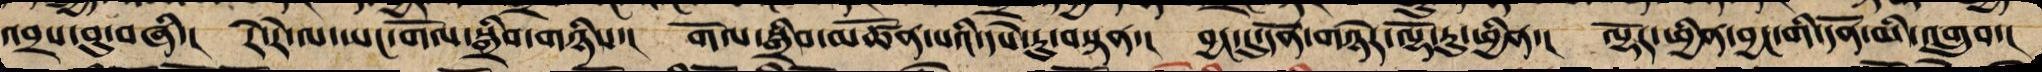འབྲས་བུ་བཞི་། རེ་རེ་ལའང་གོལ་སྒྲིབ་གཉིས་། གོལ་སྒྲིབ་མཚོན་པའི་དཔེ་རུ་བསྟན་། བྱང་དུ་དོན་གཉེར་ལྷོ་རུ་ཕྱིན་། ལྷོར་ཕྱིན་བྱང་གི་དོན་མི་འགྲུབ་།
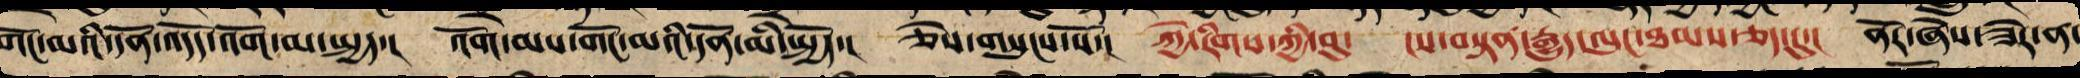གོང་མའི་དོན་འདོད་འོག་མ་སྤྱད་། འོག་མས་གོང་མའི་དོན་མི་སྤྱོད་། ཅེས་གསུངས་སོ་། ཀྱེ་རིགས་ཀྱི་བུ། ངས་བསྟན་རྒྱུད་ལུང་ཐམས་ཅད་དུ་། ནོར་ཞེས་ཟེར་ན་
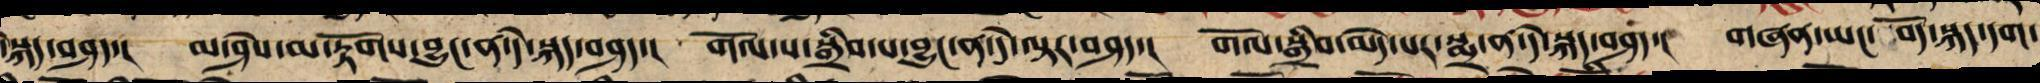་སྐད་བཤད་། མ་ཤེས་མ་རྟོགས་བྱུང་ན་དེ་སྐད་བཤད་། གོལ་ས་སྒྲིབ་པ་བྱུང་ན་དེ་ལྟར་བཤད་། གོལ་སྒྲིབ་མེད་པར་བཤད་ན་དེ་སྐད་བཤད་། གཞན་ཡང་བོད་སྐད་དག་
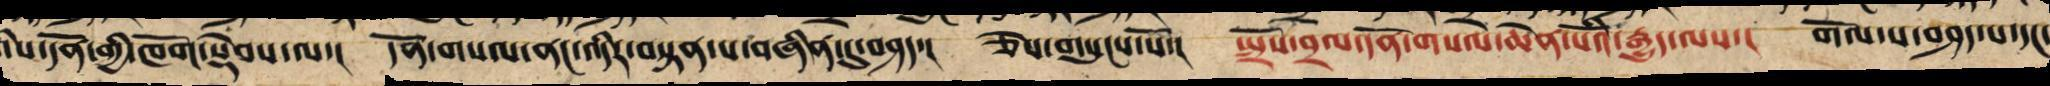གི་ཁོག་སྡེབས་ལ། །དོན་གསལ་ནང་འདིར་བསྟན་པ་བཞིན་དུ་སྤྱད། ཅེས་གསུངས་སོ། སྤྲོས་བྲལ་དོན་གསལ་ཆེན་པོའི་རྒྱུད་ལས། གོལ་ས་བཤད་པ་དང་
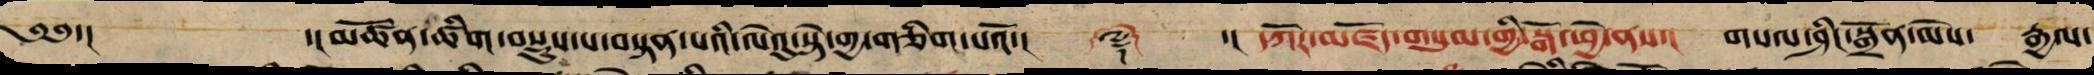༄༅་།  ་།མཚོན་ཚིག་བསྡུས་པ་བསྟན་པའི་ལེའུ་སྟེ་གྱ་གཅིག་པའོ་།། ༼༈༽ ་།། དཀོར་མཛོད་གསུམ་གྱི་སྒོ་ཕྱེ་ནས་། གསལ་ཤིང་སྒྲོན་མེས་ རྒྱལ་
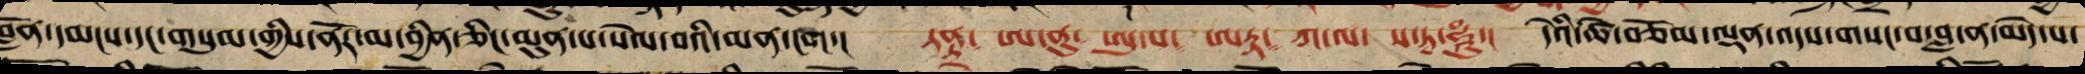བློན་དམངས་དང་གསུམ་གྱིས་ནོར་བྱིན་ཅིང་མུན་པ་སེལ་པའི་མན་ངག་། ཏནྟྲ་ ཨ་ནུ་ ཨུ་པ་ ཨརྟ་ ཀ་ལ་ ས་ཏྭ་ཧཱུཾ་། དེའི་ཚེ་བཅོམ་ལྡན་འདས་གསང་བ་བླ་ན་མེད་པ་
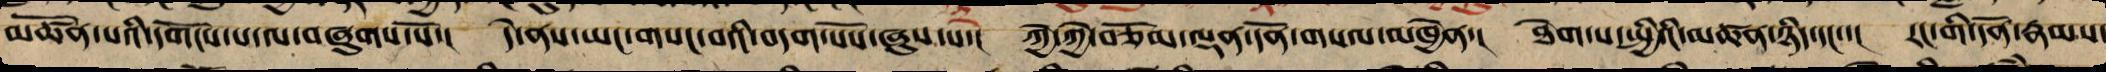མཚོན་པའི་དགོངས་པ་ལ་བཞུགས་སོ་། དེ་ནས་ཡང་གསང་བའི་བདག་པོས་ཞུས་པ་། ཀྱེ་ཀྱེ་བཅོམ་ལྡན་དོན་གསལ་མཁྱེན་། ཐེག་པ་སྤྱིའི་མཚན་ཉིད་དང་་། རང་གི་དོན་རྣམས་
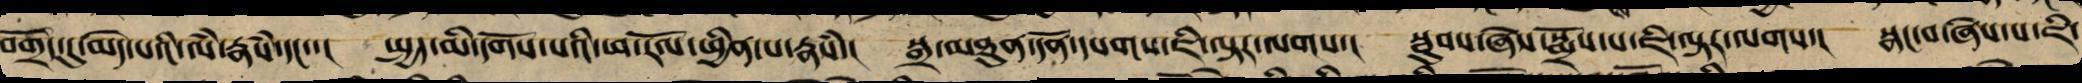བགྲོད་དུ་མེད་པའི་ལམ་རྣཾས་དང་་། སྤྱད་མི་དགོས་པའི་ཕ་རོལ་ཕྱིན་པ་རྣཾས་། སྒྲ་མཐུན་དོན་དཔག་ཇི་ལྟར་ལགས་། སྦུབས་ཞེས་སྨྲོས་པ་ཇི་ལྟར་ལགས་། སྣང་བ་ཞེས་པ་ཇི་
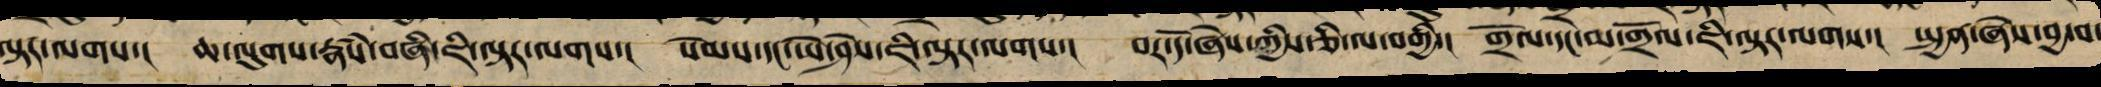ལྟར་ལགས་། ཆ་ལུགས་རྣཾས་བཞི་ཇི་ལྟར་ལགས་། སེམས་དང་ཡེ་ཤེས་ཇི་ལྟར་ལགས་། བར་དོ་ཞེས་ནི་ཅི་ལ་བགྱི་། གྲོལ་དང་མ་གྲོལ་ཇི་ལྟར་ལགས་། སྤྱན་ཞེས་བྱ་བ་
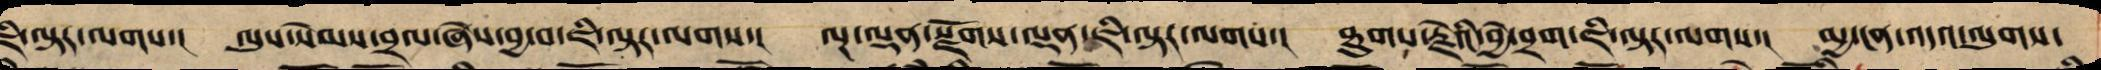ཇི་ལྟར་ལགས། ལུས་སེམས་བྲལ་ཞེས་བྱ་བ་ཇི་ལྟར་ལགས་། ལྔ་ལྡན་སྫོགས་ལྡན་ཇི་ལྟར་ལགས་། ཐུགས་རྗེའི་བྱེ་བྲག་ཇི་ལྟར་ལགས་། མྱ་ངན་འདའ་ལུགས་
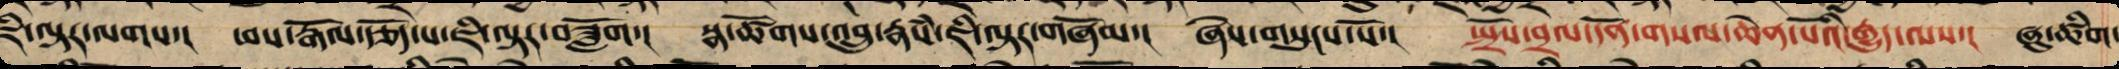ཇི་ལྟར་ལགས་། ཕས་རྒོལ་རྩོད་པ་ཅི་ལྟར་བཟློག་། སྣ་ཚོགས་འབྲུ་རྣཾས་ཇི་ལྟར་གཞོམ་། ཞེས་གསུངས་སོ་། སྤྲོས་བྲལ་དོན་གསལ་ཆེན་པོའི་རྒྱུད་ལས་། ཞུ་ཚིག་
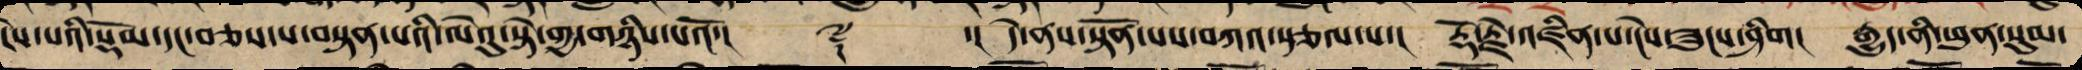ངེས་པའི་སྡོམ་དང་བཅས་པའི་ལེའུ་སྟེ་གྱ་གཉིས་པའོ་།། ༈ ་།། དེ་ནས་སྟོན་པས་བཀའ་སྩལ་པ་། རྡོ་རྗེ་འཛིན་པ་ངེས་ཟུངས་ཞིག། རྒྱུད་ནི་ཕུན་སུམ་
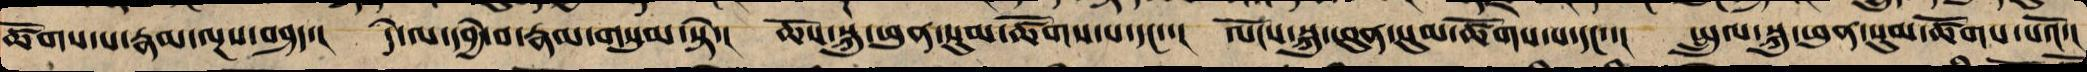ཚོགས་པ་རྣམ་ལྔས་བཤད་། དེ་ལ་དབྱེ་བ་རྣམ་གསུམ་སྟེ་། ཆོས་སྐུ་ཕུན་སུམ་ཚོགས་པ་དང་་། ལོངས་སྐུ་ཕུན་སུམ་ཚོགས་པ་དང་་། སྤྲུལ་སྐུ་ཕུན་སུམ་ཚོགས་པའོ་།
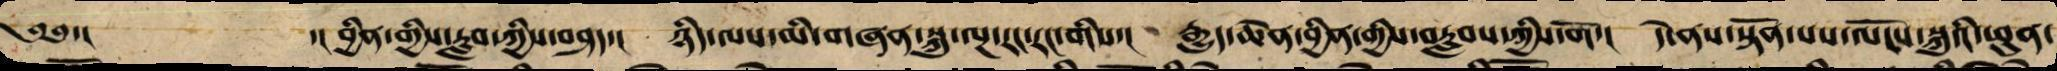༄༅་། ་། བྱིན་གྱིས་རླབ་ཀྱིས་བཤད་། ཉིད་ལས་མི་གཞན་སྐུ་ལྔ་རང་རང་གིས་། རྒྱུད་ཆེན་བྱིན་གྱི་བརླབས་ཀྱིས་གོ་། དེ་ནས་ཡང་སྟོན་པས་ལོངས་སྐུའི་ཕུན་
